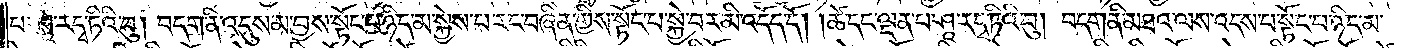པ་ཤཱ་ར་དྭ་ཏིའི་བུ། བདག་ནི་འདུས་མ་བྱས་སྟོང་པ་ཉིད་མ་སྐྱེས་པ་རང་བཞིན་གྱིས་སྟོང་པ་སྐྱེ་བར་མི་འདོད་དོ། །ཚེ་དང་ལྡན་པ་ཤཱ་ར་དྭ་ཏིའི་བུ། བདག་ནི་མཐའ་ལས་འདས་པ་སྟོང་པ་ཉིད་མ་
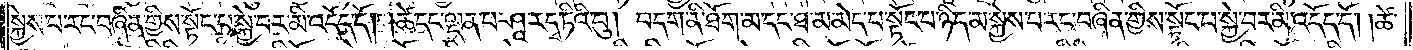སྐྱེས་པ་རང་བཞིན་གྱིས་སྟོང་པ་སྐྱེ་བར་མི་འདོད་དོ། །ཚེ་དང་ལྡན་པ་ཤཱ་ར་དྭ་ཏིའི་བུ། བདག་ནི་ཐོག་མ་དང་ཐ་མ་མེད་པ་སྟོང་པ་ཉིད་མ་སྐྱེས་པ་རང་བཞིན་གྱིས་སྟོང་པ་སྐྱེ་བར་མི་འདོད་དོ། །ཚེ་
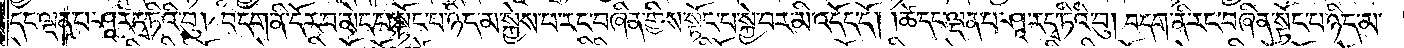དང་ལྡན་པ་ཤཱ་ར་དྭ་ཏིའི་བུ། བདག་ནི་དོར་བ་མེད་པ་སྟོང་པ་ཉིད་མ་སྐྱེས་པ་རང་བཞིན་གྱིས་སྟོང་པ་སྐྱེ་བར་མི་འདོད་དོ། །ཚེ་དང་ལྡན་པ་ཤཱ་ར་དྭ་ཏིའི་བུ། བདག་ནི་རང་བཞིན་སྟོང་པ་ཉིད་མ་
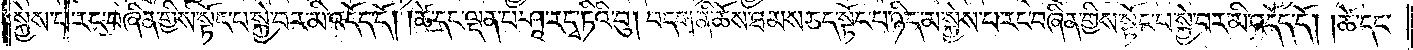སྐྱེས་པ་རང་བཞིན་གྱིས་སྟོང་པ་སྐྱེ་བར་མི་འདོད་དོ། །ཚེ་དང་ལྡན་པ་ཤཱ་ར་དྭ་ཏིའི་བུ། བདག་ནི་ཆོས་ཐམས་ཅད་སྟོང་པ་ཉིད་མ་སྐྱེས་པ་རང་བཞིན་གྱིས་སྟོང་པ་སྐྱེ་བར་མི་འདོད་དོ། །ཚེ་དང་
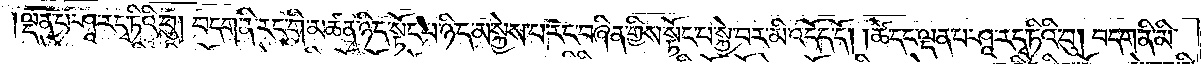ལྡན་པ་ཤཱ་ར་དྭ་ཏིའི་བུ། བདག་ནི་རང་གི་མཚན་ཉིད་སྟོང་པ་ཉིད་མ་སྐྱེས་པ་རང་བཞིན་གྱིས་སྟོང་པ་སྐྱེ་བར་མི་འདོད་དོ། །ཚེ་དང་ལྡན་པ་ཤཱ་ར་དྭ་ཏིའི་བུ། བདག་ནི་མི་
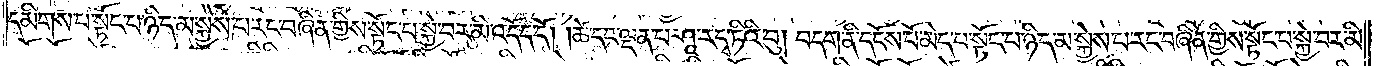དམིགས་པ་སྟོང་པ་ཉིད་མ་སྐྱེས་པ་རང་བཞིན་གྱིས་སྟོང་པ་སྐྱེ་བར་མི་འདོད་དོ། །ཚེ་དང་ལྡན་པ་ཤཱ་ར་དྭ་ཏིའི་བུ། བདག་ནི་དངོས་པོ་མེད་པ་སྟོང་པ་ཉིད་མ་སྐྱེས་པ་རང་བཞིན་གྱིས་སྟོང་པ་སྐྱེ་བར་མི་
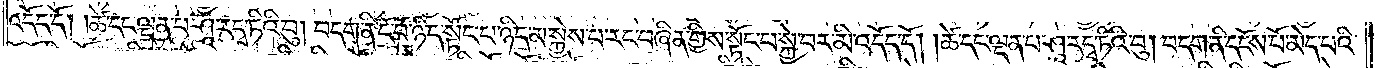འདོད་དོ། །ཚེ་དང་ལྡན་པ་ཤཱ་ར་དྭ་ཏིའི་བུ། བདག་ནི་ངོ་བོ་ཉིད་སྟོང་པ་ཉིད་མ་སྐྱེས་པ་རང་བཞིན་གྱིས་སྟོང་པ་སྐྱེ་བར་མི་འདོད་དོ། །ཚེ་དང་ལྡན་པ་ཤཱ་ར་དྭ་ཏིའི་བུ། བདག་ནི་དངོས་པོ་མེད་པའི་
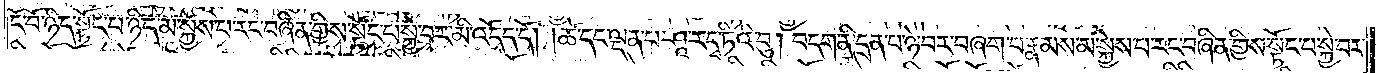ངོ་བོ་ཉིད་སྟོང་པ་ཉིད་མ་སྐྱེས་པ་རང་བཞིན་གྱིས་སྟོང་པ་སྐྱེ་བར་མི་འདོད་དོ། །ཚེ་དང་ལྡན་པ་ཤཱ་ར་དྭ་ཏིའི་བུ། བདག་ནི་དྲན་པ་ཉེ་བར་བཞག་པ་རྣམས་མ་སྐྱེས་པ་རང་བཞིན་གྱིས་སྟོང་པ་སྐྱེ་བར་
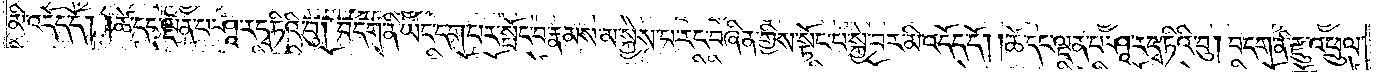མི་འདོད་དོ། །ཚེ་དང་ལྡན་པ་ཤཱ་ར་དྭ་ཏིའི་བུ། བདག་ནི་ཡང་དག་པར་སྤོང་བ་རྣམས་མ་སྐྱེས་པ་རང་བཞིན་གྱིས་སྟོང་པ་སྐྱེ་བར་མི་འདོད་དོ། །ཚེ་དང་ལྡན་པ་ཤཱ་ར་དྭ་ཏིའི་བུ། བདག་ནི་རྫུ་འཕྲུལ་
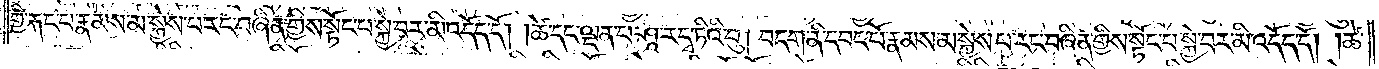གྱི་རྐང་པ་རྣམས་མ་སྐྱེས་པ་རང་བཞིན་གྱིས་སྟོང་པ་སྐྱེ་བར་མི་འདོད་དོ། །ཚེ་དང་ལྡན་པ་ཤཱ་ར་དྭ་ཏིའི་བུ། བདག་ནི་དབང་པོ་རྣམས་མ་སྐྱེས་པ་རང་བཞིན་གྱིས་སྟོང་པ་སྐྱེ་བར་མི་འདོད་དོ། །ཚེ་
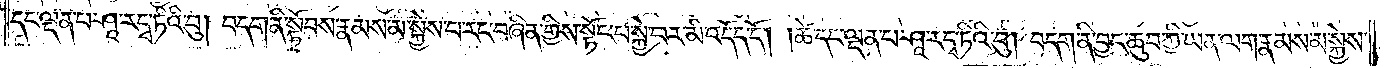དང་ལྡན་པ་ཤཱ་ར་དྭ་ཏིའི་བུ། བདག་ནི་སྟོབས་རྣམས་མ་སྐྱེས་པ་རང་བཞིན་གྱིས་སྟོང་པ་སྐྱེ་བར་མི་འདོད་དོ། །ཚེ་དང་ལྡན་པ་ཤཱ་ར་དྭ་ཏིའི་བུ། བདག་ནི་བྱང་ཆུབ་ཀྱི་ཡན་ལག་རྣམས་མ་སྐྱེས་
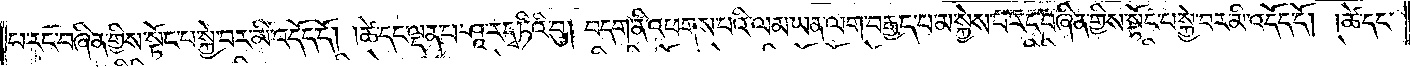པ་རང་བཞིན་གྱིས་སྟོང་པ་སྐྱེ་བར་མི་འདོད་དོ། །ཚེ་དང་ལྡན་པ་ཤཱ་ར་དྭ་ཏིའི་བུ། བདག་ནི་འཕགས་པའི་ལམ་ཡན་ལག་བརྒྱད་པ་མ་སྐྱེས་པ་རང་བཞིན་གྱིས་སྟོང་པ་སྐྱེ་བར་མི་འདོད་དོ། །ཚེ་དང་
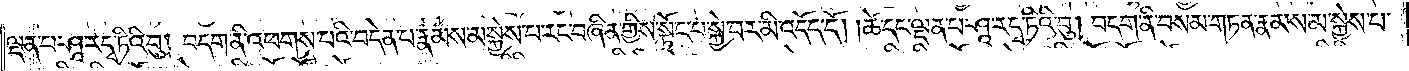ལྡན་པ་ཤཱ་ར་དྭ་ཏིའི་བུ། བདག་ནི་འཕགས་པའི་བདེན་པ་རྣམས་མ་སྐྱེས་པ་རང་བཞིན་གྱིས་སྟོང་པ་སྐྱེ་བར་མི་འདོད་དོ། །ཚེ་དང་ལྡན་པ་ཤཱ་ར་དྭ་ཏིའི་བུ། བདག་ནི་བསམ་གཏན་རྣམས་མ་སྐྱེས་པ་
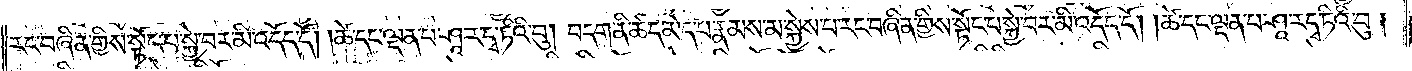རང་བཞིན་གྱིས་སྟོང་པ་སྐྱེ་བར་མི་འདོད་དོ། །ཚེ་དང་ལྡན་པ་ཤཱ་ར་དྭ་ཏིའི་བུ། བདག་ནི་ཚད་མེད་པ་རྣམས་མ་སྐྱེས་པ་རང་བཞིན་གྱིས་སྟོང་པ་སྐྱེ་བར་མི་འདོད་དོ། །ཚེ་དང་ལྡན་པ་ཤཱ་ར་དྭ་ཏིའི་བུ།
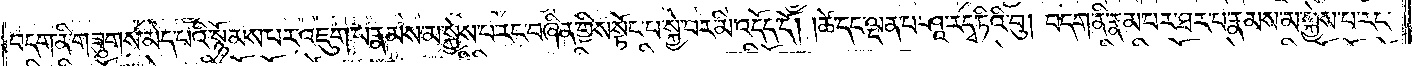བདག་ནི་གཟུགས་མེད་པའི་སྙོམས་པར་འཇུག་པ་རྣམས་མ་སྐྱེས་པ་རང་བཞིན་གྱིས་སྟོང་པ་སྐྱེ་བར་མི་འདོད་དོ། །ཚེ་དང་ལྡན་པ་ཤཱ་ར་དྭ་ཏིའི་བུ། བདག་ནི་རྣམ་པར་ཐར་པ་རྣམས་མ་སྐྱེས་པ་རང་
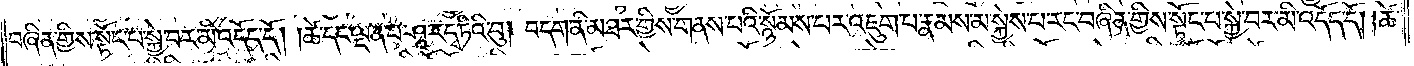བཞིན་གྱིས་སྟོང་པ་སྐྱེ་བར་མི་འདོད་དོ། །ཚེ་དང་ལྡན་པ་ཤཱ་ར་དྭ་ཏིའི་བུ། བདག་ནི་མཐར་གྱིས་གནས་པའི་སྙོམས་པར་འཇུག་པ་རྣམས་མ་སྐྱེས་པ་རང་བཞིན་གྱིས་སྟོང་པ་སྐྱེ་བར་མི་འདོད་དོ། །ཚེ་
